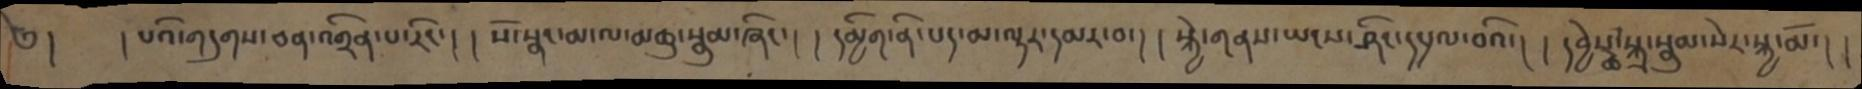༄། །པའི་གདུགས་ཅན་འགྲིན་པ་རིང་། །སོ་སྣང་མ་ལ་མཆུ་སྣུམ་ཞིང་། །དམྱིག་ནི་པད་མ་ལྟར་དམར་བ་། །སྐྱེ་གནས་ཡངས་ཤིང་དཔྲལ་བའི་། །དབྱེས་ཚ་སྐྲ་སྣུམ་སེར་སྐྱ་མོ་། །
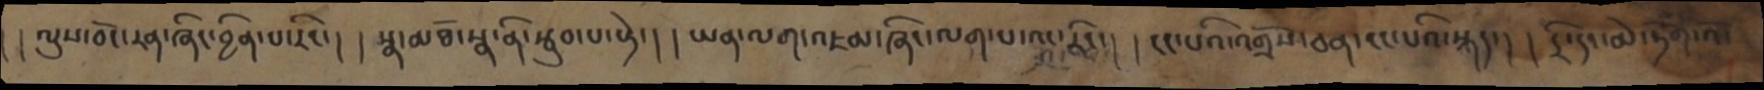། །ལུས་བོང་རན་ཞིང་བྱིན་པ་རིང་། །སྣ་མཐོ་སྣ་ནི་སྦུབ་པ་སྟེ་། །ཡན་ལག་འཇམ་ཞིང་ལག་པ་འང་རིང་། །ངང་པའི་འགྲོས་ཅན་ངང་པའི་སྐད་། །དྲི་དང་མེ་ཏོག་འོ་
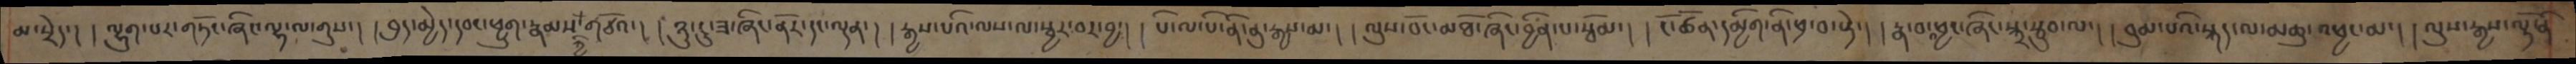མ་སྲེད་། །ལྷུག་པར་གཏོང་ཞིང་ལྷ་ལ་གུས་། །བུད་མྱེད་དབང་ཕྱུག་རྣམས་ཀྱི་གཙོའ་། །ཉུ་ངུ་ཟ་ཞིང་ནོར་དང་ལྡན་། །རྒྱས་པའི་ལས་ལ་སྦྱར་བར་བྱ་། །པི་ལ་པི་ནི་ནུ་རྒྱས་མ་། །ལུས་བོང་མཐོ་ཞིང་བྱིན་པ་སྦོམ་། །ངོ་ཚོན་དམྱིག་ནི་ཕྲ་བ་སྟེ་། །རྣ་བ་འཕྱང་ཞིང་སྐྲ་སྦུབ་ལ་། །བུམ་པའི་སྐད་ལ་མཆུ་འཕྱང་མ་། །ལུས་རྒྱས་ལྟོ་ནི་
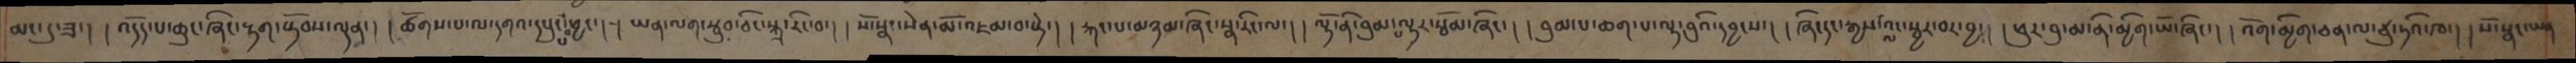མང་དུ་ཟ་། །འདོད་པ་ཆུང་ཞིང་རྟག་སྟོབས་ལྡན་། །ཚོགས་པ་ལ་དགའ་དཔུང་པ་འཕྱང་། །ཡན་ལག་སྦུབ་ཅིང་སྐྲ་རིང་བ་། །སོ་སྣ་སེན་མོ་འཇམ་བ་སྟེ་། །རྐང་པ་མཉམ་ཞིང་སྣ་རིང་ལ་། །ལྟོ་ནི་བུམ་པ་ལྟར་སྦོམ་ཞིང་། །བུམ་པ་ཆགས་པ་ལྟ་བུའི་དབྱངས་། །ཞིང་དང་རྒྱས་ལ་འང་སྦྱར་བར་བྱ་། །ཕུར་བུ་མ་ནི་མྱིག་ཡོ་ཞིང་། །འོག་མྱིག་ཅན་ལ་ཙུ་ཏའི་ཁ་། །སོ་སྣང་ཡན
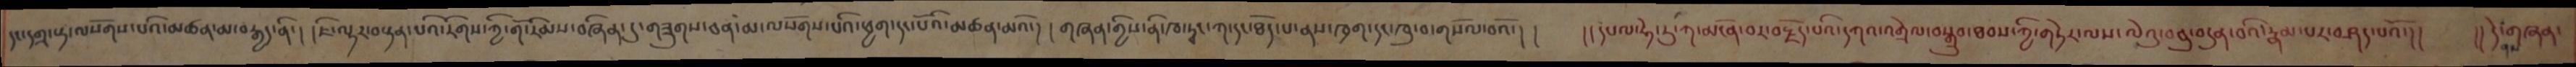དང་དགྲ་སྟ་ལསོགས་པའི་མཚན་མ་བརྒྱད་ནི་། །ཇི་ལྟར་བསྟན་པའི་རིགས་ཀྱི་གོ་རིམས་བཞིན་དུ་གཟུགས་ཅན་མ་ལསོགས་པའི་ཕྱག་དང་པོའི་མཚན་མའོ་། །གཞན་གྱིས་ནི་ཁ་ཏྭང་ཀ་དང་ཐོད་པ་ནས་ཁྲག་དང་ཁུ་བ་དང་གསོལ་བའོ་། །     །།དཔལ་ཧེ་རུ་ཀ་མངོན་བར་བརྗོད་པའི་དཀའ་འགྲེལ་བསྒྲུབ་ཐབས་ཀྱི་གཏེར་ལས་ལེའུ་བཅུ་བདུན་བའི་རྣམ་པར་བཤད་པའོ།།   །།དེ་ནས་གཞན་
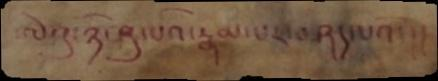ལེའུ་ཉི་ཤུ་པའི་རྣམ་པར་བཤད་པའོ་།།
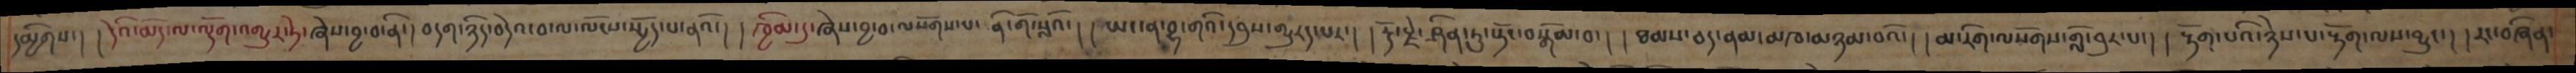དམྱིགས་། །དེའི་མོད་ལ་ལྡོག་འགྱུར་ཏེ་ཞེས་བྱ་བ་ནི་། བདག་ཉིད་བདེའ་བ་ལ་ལོངས་སྤྱོད་པ་ནའོ་། །ཁྱིམ་དུ་ཞེས་བྱ་བ་ལསོགས་པ་ ནི་གོ་སླའོ་། །ཡང་ན་བྷ་གའི་དབུས་གྱུརད་པར་། །རྡོ་རྗེ་ཤིན་ཏུ་སྟོང་བསྒོམ་བ་། །ཐམས་ཅད་ནམ་མཁ་མཉམ་པའོ་། །མ་རིག་ལསོགས་གློ་བུར་པ་། །རྟོག་པའི་ཉེས་པ་རྟོག་ལས་བྱུང་། རང་བཞིན་
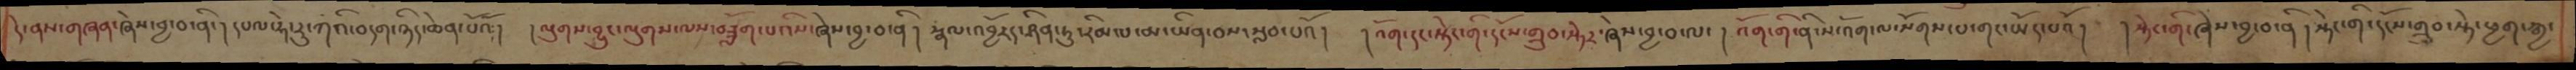དེ་ནས་གཞན་ཞེས་བྱ་བ་ནི་། དཔལ་ཧེ་རུ་ཀའི་བདག་ཉིད་ཆེན་པོའོ་།  །ལུགས་བྱུང་ལུགས་ལས་བཟློག་པའིས་ཞེས་བྱ་བ་ནི་། རྣལ་འབྱོརད་ཤིན་ཏུ་རིམ་པ་མ་ཡིན་བས་སླབ་པའོ་།  །འོག་དང་སྟེང་གི་དངོས་གྲུབ་སྟེར་ཞེས་བྱ་བ་ལ་། འོག་གི་ནི་ས་འོག་ལ་སོགས་པ་གང་ཡོད་པའོ་།  །སྟེང་གི་ཞེས་བྱ་བ་ནི་། སྟེང་གི་དངོས་གྲུབ་སྟེ་ཕྱག་རྒྱ་
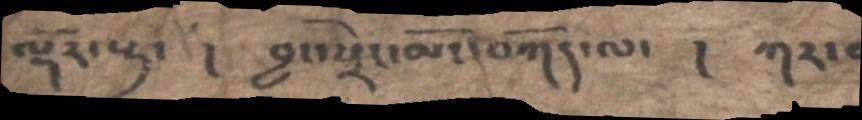ལྷོར་སྟ་ །བྱང་སྲེང་མདོ་བཀོད་ལ་ ། ཀར་བ
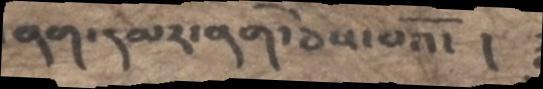ནག་དམར་ནག་ཅེས་པའོ་ །
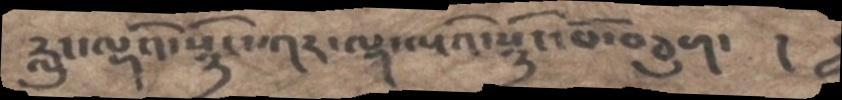རླུང་ལྷའི་སྙིང་ཀར་ལྷ་ལྔའི་སྙིང་པོ་བཅུག་  །
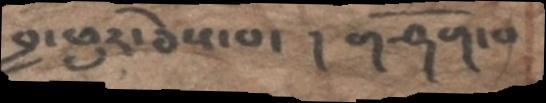བྱ་ཕུར་ཅེས་པ་ ། གཤོག་པ་
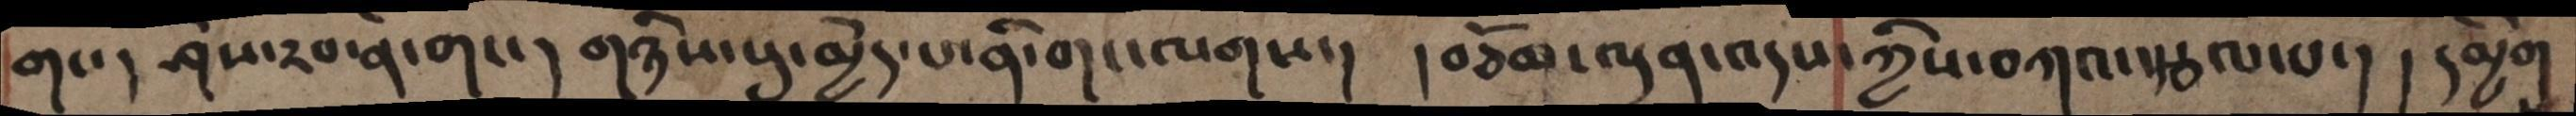གང་། ཤེས་རབ་ནི་གང་། གཉིས་སུ་མྱེད་པ་ནི་གང་ལགས་། །བཅོམ་ལྡན་འདས་ཀྱིས་བཀའ་སྩལ་པ་། དམྱིག
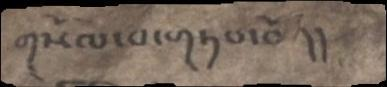གསོལ་བ་གཏབ་བོ།།
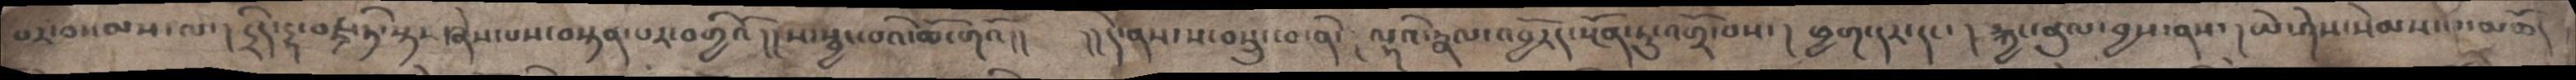པར་བསམས་ལ་ །དྲིད་དྷ་བཛྲ་ཏེ་སྟ་ཞེས་པས་བསྟན་པར་བགྱིའོ །།ས་སྦྱང་བའི་ཆོ་གའོ།།  །།དེ་ནས་ས་བསྲུང་བནི་ །ལྷའི་རྣལ་འབྱོརད་སྔོན་ཏུ་འགྲོ་བས་། ཕྱག་དར་དང་ ། རྐྱང་ནུལ་བྱས་ནས་ །ཡེ་ཤེས་སེམས་པ་མཆོད
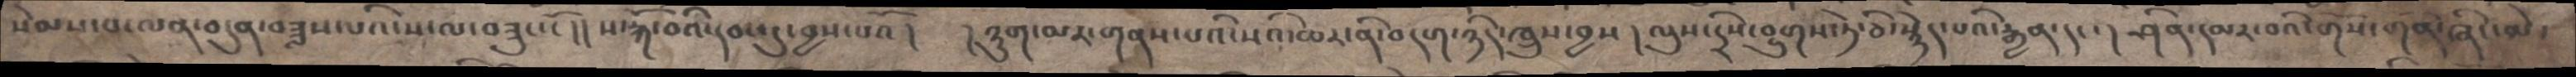སེམས་པ་ལན་བདུན་བཟླས་པའི་ས་ལ་བཟུང་ངོ་།། ས་རྐོ་བའི་དབང་དུ་བྱས་པའོ། །ཉུག་མར་གནས་པའི་སའི་ཆར་ནི་བདག་ཉིད་ཁྲུས་བྱས། ལུས་དྲིས་བྱུགས་ཏེ་ཅི་སྙེད་པའི་རྒྱན་དང་། ཤིན་དམར་བའི་གོས་གོན་ཞིང་མེ་
